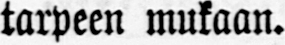tarpeen mukaan.
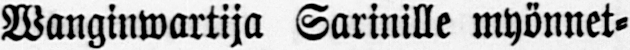Wanginwartija Sarinille myönnet-
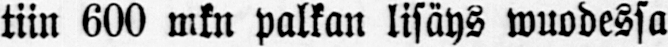tiin 600 mkn palkan lisäys wuodessa
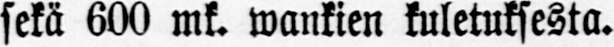sekä 600 mk. wankien kuletuksesta.
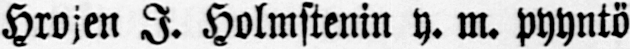Hrojen I. Holmstenin y. m. pyyntö
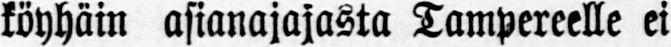köyhäin asianajajasta Tampereelle ei
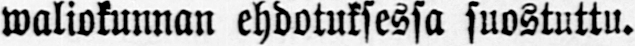waliokunnan ehdotuksessa suostuttu.
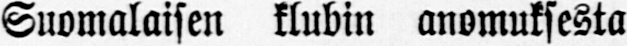Suomalaisen klubin anomuksesta
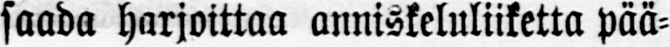saada harjoittaa anniskeluliiketta pää-
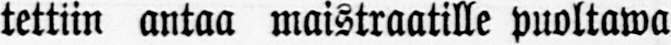tettiin antaa maistraatille puoltawa
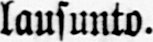lausunto.
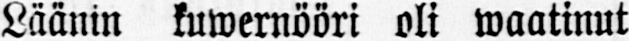Läänin kuwernööri oli waatinut
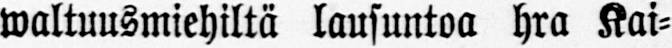waltuusmiehiltä lausuntoa hra Kai-
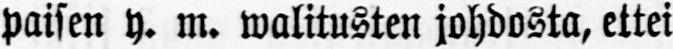paisen y. m. walitusten johdosta, ettei
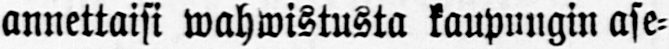annettaisi wahwistusta kaupungin ase-
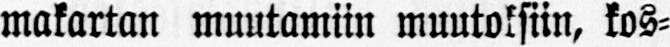makartan muutamiin muutoksiin, kos-
